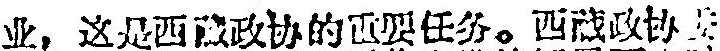业，这是西藏政协的重要任务。西藏政协委
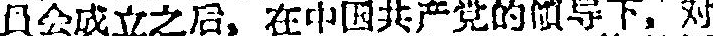員会成立之后，在中国共产党的領导下，对
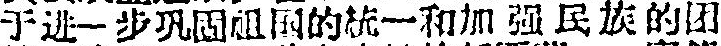于进一步巩固祖国的統一和加強民族的团
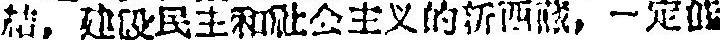結，建設民主和社会主义的新西藏，一定能
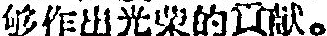够作出光荣的貢献。
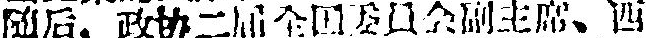随后，政协二屆全国委員会副主席、西
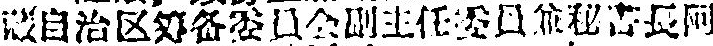藏自治区筹备委員会副主任委員兼祕書長阿
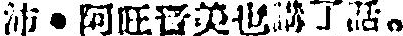沛・阿旺晉美也講了話。
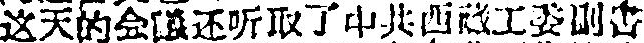这天的会議还听取了中共西藏工委副書
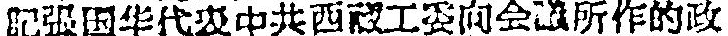記張国华代表中共西藏工委向会議所作的政
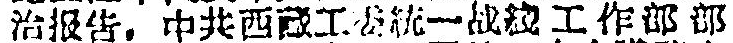治报告，中共西藏工委統一战綫工作部部
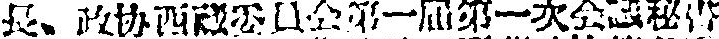長、政协西藏委員会第一屆第一次会議祕書
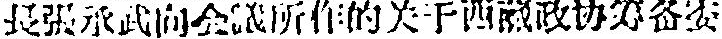長張承武向会議所作的关千西藏政协筹备委
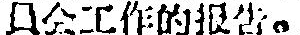員会工作的报告。
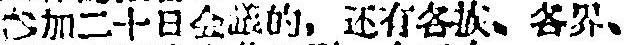参加二十日会議的，还有各族、各界、
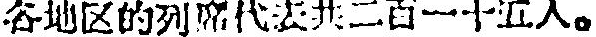各地区的列席代表共二百一十五人。
